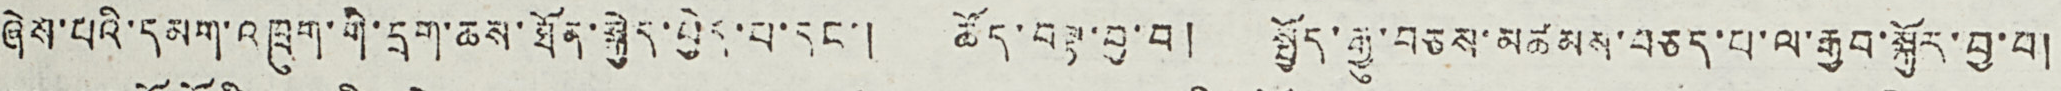ཞེས་པའི་དམག་འཁྲུག་གི་དྲག་ཆས་ཐོན་སྐྱེད་བྱེད་པ་དང་། ཚོད་བལྟ་བྱ་བ། སྤྱོད་རྒྱུ་བཅས་མཚམས་བཅད་པ་ལ་རྒྱབ་སྐྱོར་བྱ་བ།
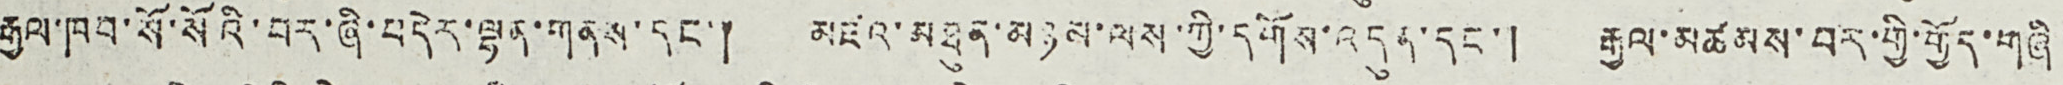རྒྱལ་ཁབ་སོ་སོའི་བར་ཞི་བདེར་ལྷན་གནས་དང་། མཛའ་མཐུན་མཉམ་ལས་ཀྱི་དགོས་འདུན་དང་། རྒྱལ་མཚམས་བར་གྱི་གྱོད་གཞི
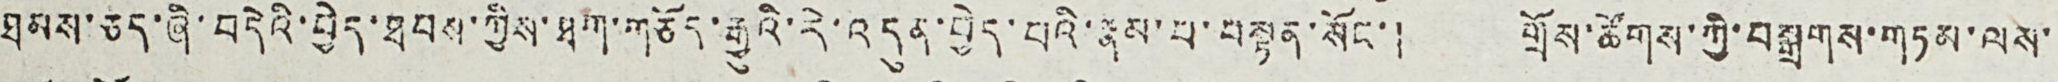ཐམས་ཅད་ཞི་བདེའི་བྱེད་ཐབས་ཀྱིས་ཐག་གཅོད་རྒྱུའི་རེ་འདུན་བྱེད་པའི་རྣམ་པ་བསྟན་སོང་། གྲོས་ཚོགས་ཀྱི་བསྒྲགས་གཏམ་ལས་
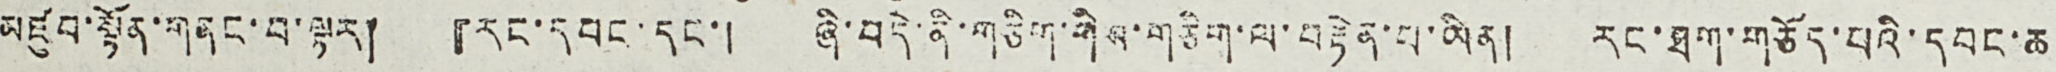མཛུབ་སྟོན་གནང་བ་ལྟར། 『རང་དབང་དང་། ཞི་བདེ་ནི་གཅིག་གིས་གཅིག་ལ་བརྟེན་པ་ཡིན། རང་ཐག་གཅོད་པའི་དབང་ཆ
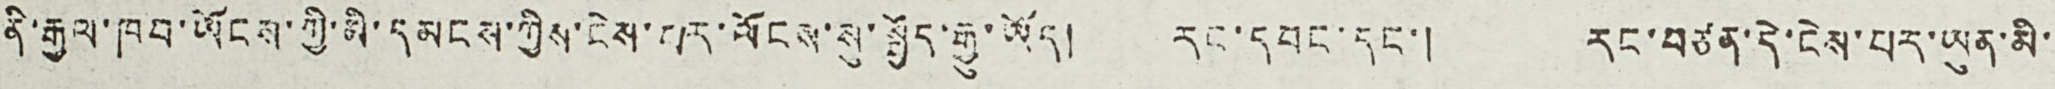ནི་རྒྱལ་ཁབ་ཡོངས་ཀྱི་མི་དམངས་ཀྱིས་ངེས་པར་ལོངས་སུ་སྤྱོད་རྒྱུ་ཡོད། རང་དབང་དང་། རང་བཙན་དེ་ངེས་པར་ཡུན་མི་
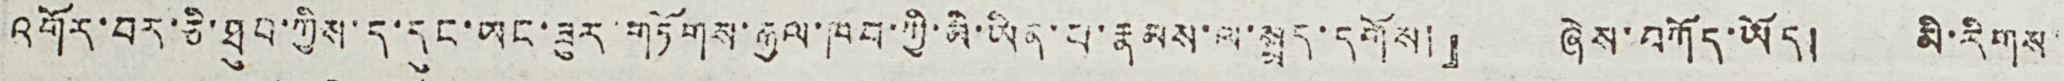འགོར་བར་ཅི་ཐུབ་ཀྱིས་ད་དུང་ཡང་ཟུར་གཏོགས་རྒྱལ་ཁབ་ཀྱི་མི་ཡིན་པ་རྣམས་ལ་སྨད་དགོས།』 ཞེས་བཀོད་ཡོད། མི་རིགས་
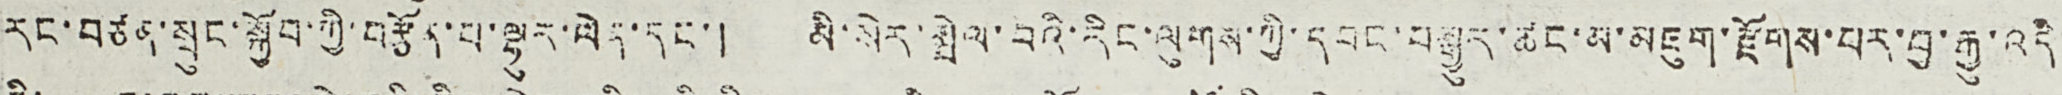རང་བཙན་སྲུང་སྐྱོབ་ཀྱི་བརྩོན་པ་ལྷུར་ལེན་དང་། མི་སེར་སྤེལ་བའི་རིང་ལུགས་ཀྱི་དབང་བསྒྱུར་ཚང་མ་མཇུག་རྫོགས་པར་བྱ་རྒྱུ་འདི
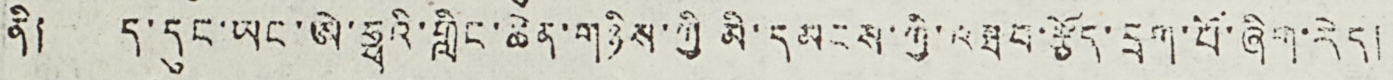ནི། ད་དུང་ཡང་ཨེ་ཧྥའི་གླིང་ཆེན་གཉིས་ཀྱི མི་དམངས་ཀྱི་འཐབ་རྩོད་དྲག་པོ་ཞིག་རེད།
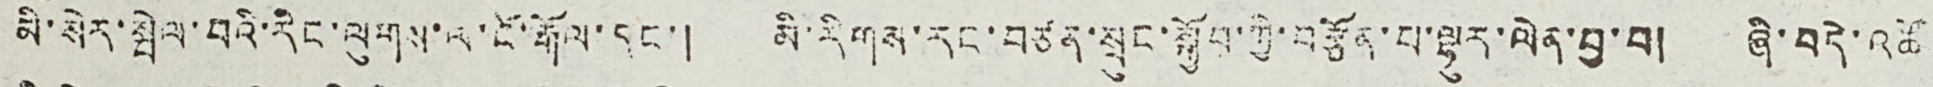མི་སེར་སྤེལ་བའི་རིང་ལུགས་ལ་ངོ་རྒོལ་དང་། མི་རིགས་རང་བཙན་སྲུང་སྐྱོབ་ཀྱི་བརྩོན་པ་ལྷུར་ལེན་བྱ་བ། ཞི་བདེ་འཚོ
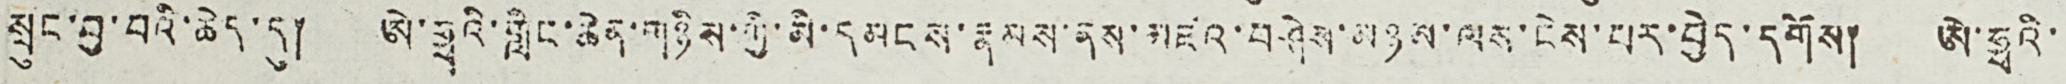སྲུང་བྱ་བའི་ཆེད་དུ། ཨེ་ཧྥའི་གླིང་ཆེན་གཉིས་ཀྱི་མི་དམངས་རྣམས་ནས་མཛའ་བཤེས་མཉམ་ལས་ངེས་པར་བྱེད་དགོས། ཨེ་ཧྥའི་
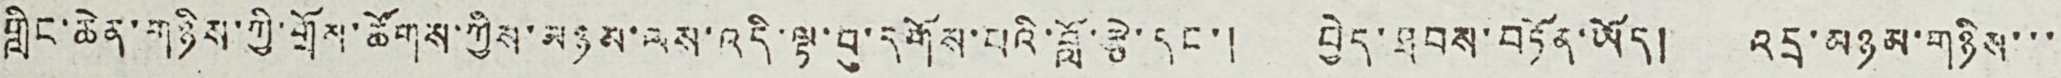གླིང་ཆེན་གཉིས་ཀྱི་གྲོས་ཚོགས་ཀྱིས་མཉམ་ལས་འདི་ལྟ་བུ་དགོས་པའི་བློ་རྩི་དང་། བྱེད་ཐབས་བཏོན་ཡོད། འདྲ་མཉམ་གཉིས་་་
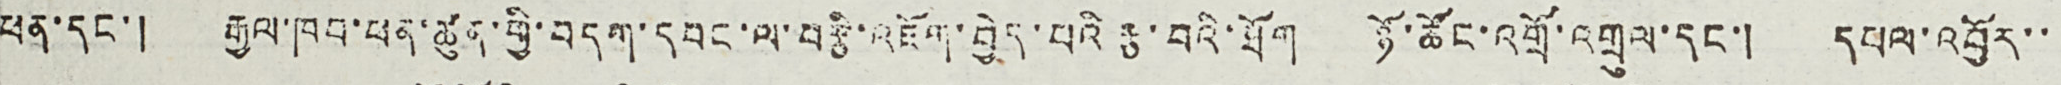ཕན་དང་། རྒྱལ་ཁབ་ཕན་ཚུན་གྱི་བདག་དབང་ལ་བརྩི་འཇོག་བྱེད་པའི རྩ་བའི་ཐོག ཉོ་ཚོང་འགྲོ་འགྲུལ་དང་། དཕལ་འབྱོར་་
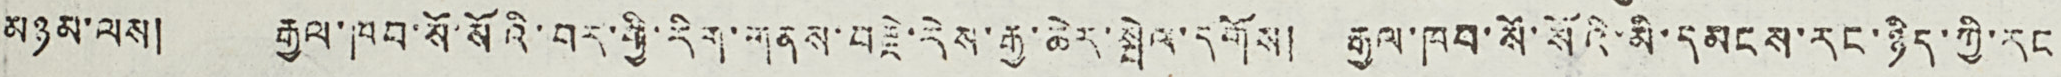མཉམ་ལས། རྒྱལ་ཁབ་སོ་སོའི་བར་གྱི་རིག་གནས་བརྗེ་རེས་རྒྱ་ཆེར་སྤེལ་དགོས། རྒྱལ་ཁབ་སོ་སོའི་མི་དམངས་རང་ཉིད་ཀྱི་རང
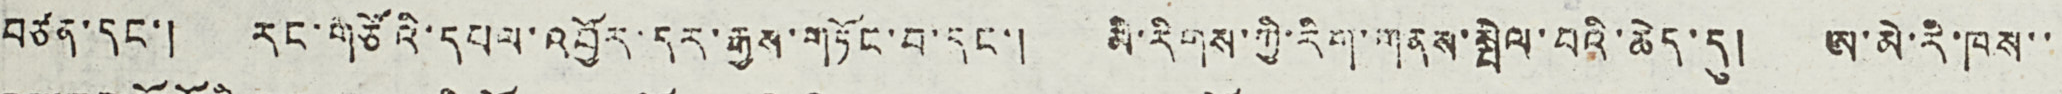བཙན་དང་། རང་གཙོའི་དཔལ་འབྱོར་དར་རྒྱས་གཏོང་བ་དང་། མི་རིགས་ཀྱི་རིག་གནས་སྤེལ་བའི་ཆེད་དུ། ཨ་མེ་རི་ཁས་་
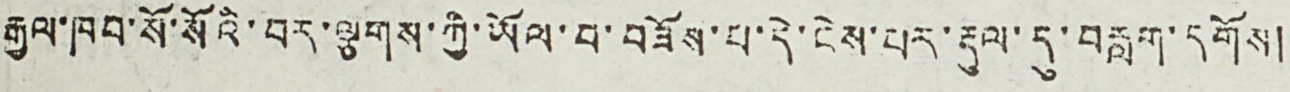རྒྱལ་ཁབ་སོ་སོའི་བར་ལྕགས་ཀྱི་ཡོལ་བ་བཟོས་པ་དེ་ངེས་པར་རྡུལ་དུ་བརླག་དགོས།
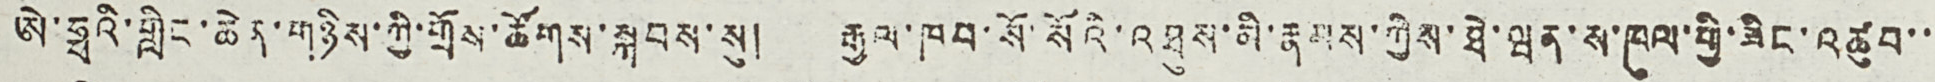ཨེ་ཧྥའི་གླིང་ཆེན་གཉིས་ཀྱི་གྲོས་ཚོགས་སྐབས་སུ། རྒྱལ་ཁབ་སོ་སོའི་འཐུས་མི་རྣམས་ཀྱིས་ཐེ་ཝན་ས་ཁུལ་གྱི་ཟིང་འཚུབ་་
